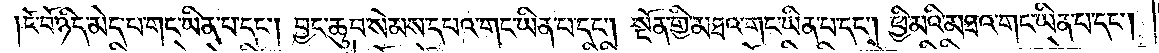ངོ་བོ་ཉིད་མེད་པ་གང་ཡིན་པ་དང༌། བྱང་ཆུབ་སེམས་དཔའ་གང་ཡིན་པ་དང༌། སྔོན་གྱི་མཐའ་གང་ཡིན་པ་དང༌། ཕྱི་མའི་མཐའ་གང་ཡིན་པ་དང༌།
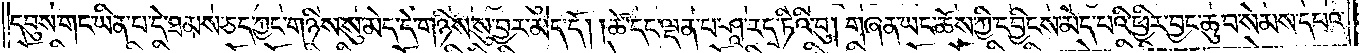དབུས་གང་ཡིན་པ་དེ་ཐམས་ཅད་ཀྱང་གཉིས་སུ་མེད་དེ་གཉིས་སུ་བྱར་མེད་དོ། །ཚེ་དང་ལྡན་པ་ཤཱ་རདྭ་ཏིའི་བུ། གཞན་ཡང་ཆོས་ཀྱི་དབྱིངས་མེད་པའི་ཕྱིར་བྱང་ཆུབ་སེམས་དཔའ་
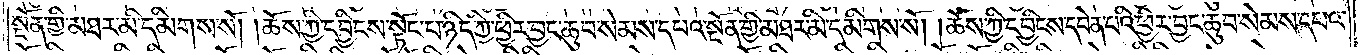སྔོན་གྱི་མཐར་མི་དམིགས་སོ། །ཆོས་ཀྱི་དབྱིངས་སྟོང་པ་ཉིད་ཀྱི་ཕྱིར་བྱང་ཆུབ་སེམས་དཔའ་སྔོན་གྱི་མཐར་མི་དམིགས་སོ། །ཆོས་ཀྱི་དབྱིངས་དབེན་པའི་ཕྱིར་བྱང་ཆུབ་སེམས་དཔའ་
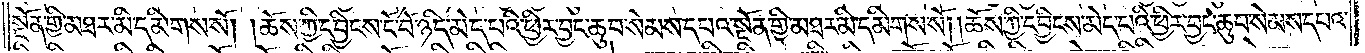སྔོན་གྱི་མཐར་མི་དམིགས་སོ། །ཆོས་ཀྱི་དབྱིངས་ངོ་བོ་ཉིད་མེད་པའི་ཕྱིར་བྱང་ཆུབ་སེམས་དཔའ་སྔོན་གྱི་མཐར་མི་དམིགས་སོ། །ཆོས་ཀྱི་དབྱིངས་མེད་པའི་ཕྱིར་བྱང་ཆུབ་སེམས་དཔའ་
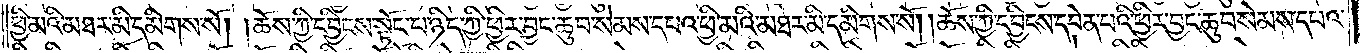ཕྱི་མའི་མཐར་མི་དམིགས་སོ། །ཆོས་ཀྱི་དབྱིངས་སྟོང་པ་ཉིད་ཀྱི་ཕྱིར་བྱང་ཆུབ་སེམས་དཔའ་ཕྱི་མའི་མཐར་མི་དམིགས་སོ། །ཆོས་ཀྱི་དབྱིངས་དབེན་པའི་ཕྱིར་བྱང་ཆུབ་སེམས་དཔའ་
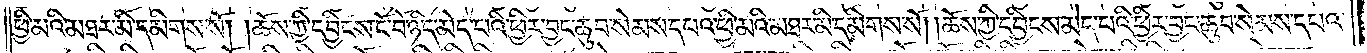ཕྱི་མའི་མཐར་མི་དམིགས་སོ། །ཆོས་ཀྱི་དབྱིངས་ངོ་བོ་ཉིད་མེད་པའི་ཕྱིར་བྱང་ཆུབ་སེམས་དཔའ་ཕྱི་མའི་མཐར་མི་དམིགས་སོ། །ཆོས་ཀྱི་དབྱིངས་མེད་པའི་ཕྱིར་བྱང་ཆུབ་སེམས་དཔའ་
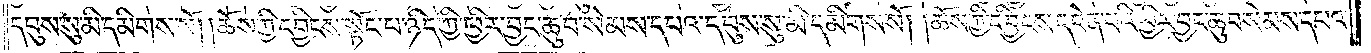དབུས་སུ་མི་དམིགས་སོ། །ཆོས་ཀྱི་དབྱིངས་སྟོང་པ་ཉིད་ཀྱི་ཕྱིར་བྱང་ཆུབ་སེམས་དཔའ་དབུས་སུ་མི་དམིགས་སོ། །ཆོས་ཀྱི་དབྱིངས་དབེན་པའི་ཕྱིར་བྱང་ཆུབ་སེམས་དཔའ་
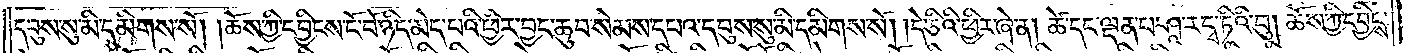དབུས་སུ་མི་དམིགས་སོ། །ཆོས་ཀྱི་དབྱིངས་ངོ་བོ་ཉིད་མེད་པའི་ཕྱིར་བྱང་ཆུབ་སེམས་དཔའ་དབུས་སུ་མི་དམིགས་སོ། །དེ་ཅིའི་ཕྱིར་ཞེ་ན། ཚེ་དང་ལྡན་པ་ཤཱ་རདྭ་ཏིའི་བུ། ཆོས་ཀྱི་དབྱིངས་
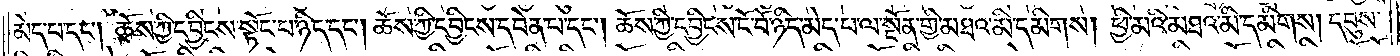མེད་པ་དང༌། ཆོས་ཀྱི་དབྱིངས་སྟོང་པ་ཉིད་དང༌། ཆོས་ཀྱི་དབྱིངས་དབེན་པ་དང༌། ཆོས་ཀྱི་དབྱིངས་ངོ་བོ་ཉིད་མེད་པ་ལ་སྔོན་གྱི་མཐའ་མི་དམིགས། ཕྱི་མའི་མཐའ་མི་དམིགས། དབུས་
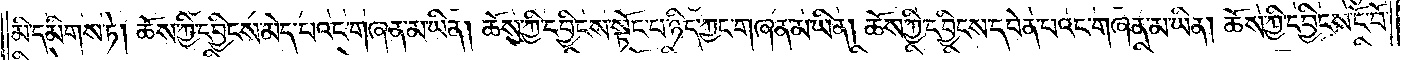མི་དམིགས་ཏེ། ཆོས་ཀྱི་དབྱིངས་མེད་པའང་གཞན་མ་ཡིན། ཆོས་ཀྱི་དབྱིངས་སྟོང་པ་ཉིད་ཀྱང་གཞན་མ་ཡིན། ཆོས་ཀྱི་དབྱིངས་དབེན་པའང་གཞན་མ་ཡིན། ཆོས་ཀྱི་དབྱིངས་ངོ་བོ་
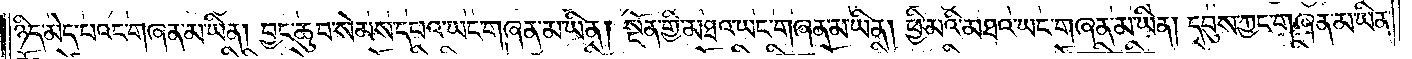ཉིད་མེད་པའང་གཞན་མ་ཡིན། བྱང་ཆུབ་སེམས་དཔའ་ཡང་གཞན་མ་ཡིན། སྔོན་གྱི་མཐའ་ཡང་གཞན་མ་ཡིན། ཕྱི་མའི་མཐའ་ཡང་གཞན་མ་ཡིན། དབུས་ཀྱང་གཞན་མ་ཡིན་
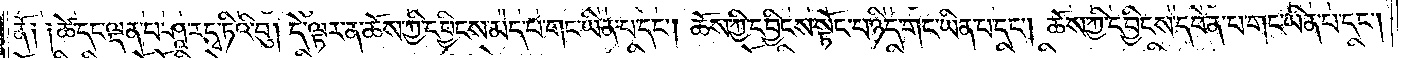ནོ༑ ༑ཚེ་དང་ལྡན་པ་ཤཱ་རདྭ་ཏིའི་བུ། དེ་ལྟར་ན་ཆོས་ཀྱི་དབྱིངས་མེད་པ་གང་ཡིན་པ་དང༌། ཆོས་ཀྱི་དབྱིངས་སྟོང་པ་ཉིད་གང་ཡིན་པ་དང༌། ཆོས་ཀྱི་དབྱིངས་དབེན་པ་གང་ཡིན་པ་དང༌།
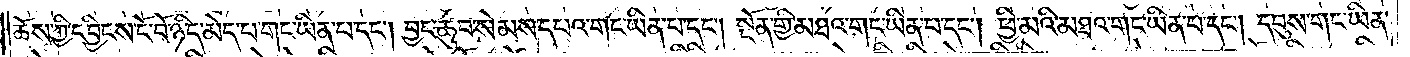ཆོས་ཀྱི་དབྱིངས་ངོ་བོ་ཉིད་མེད་པ་གང་ཡིན་པ་དང༌། བྱང་ཆུབ་སེམས་དཔའ་གང་ཡིན་པ་དང༌། སྔོན་གྱི་མཐའ་གང་ཡིན་པ་དང༌། ཕྱི་མའི་མཐའ་གང་ཡིན་པ་དང༌། དབུས་གང་ཡིན་
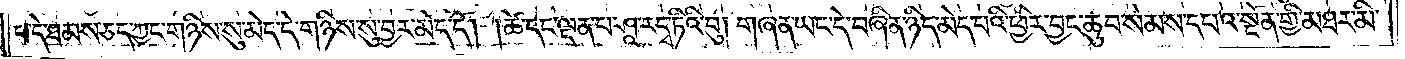པ་དེ་ཐམས་ཅད་ཀྱང་གཉིས་སུ་མེད་དེ་གཉིས་སུ་བྱར་མེད་དོ། །ཚེ་དང་ལྡན་པ་ཤཱ་རདྭ་ཏིའི་བུ། གཞན་ཡང་དེ་བཞིན་ཉིད་མེད་པའི་ཕྱིར་བྱང་ཆུབ་སེམས་དཔའ་སྔོན་གྱི་མཐར་མི་
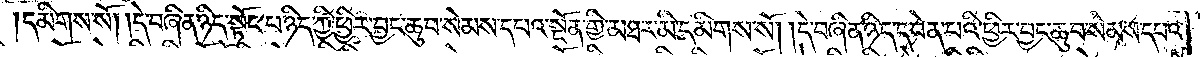དམིགས་སོ། །དེ་བཞིན་ཉིད་སྟོང་པ་ཉིད་ཀྱི་ཕྱིར་བྱང་ཆུབ་སེམས་དཔའ་སྔོན་གྱི་མཐར་མི་དམིགས་སོ། །དེ་བཞིན་ཉིད་དབེན་པའི་ཕྱིར་བྱང་ཆུབ་སེམས་དཔའ་
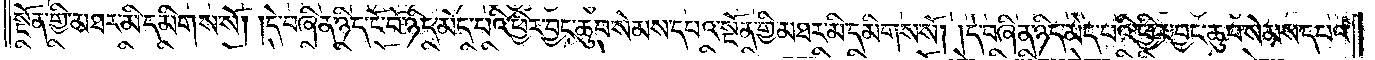སྔོན་གྱི་མཐར་མི་དམིགས་སོ། །དེ་བཞིན་ཉིད་ངོ་བོ་ཉིད་མེད་པའི་ཕྱིར་བྱང་ཆུབ་སེམས་དཔའ་སྔོན་གྱི་མཐར་མི་དམིགས་སོ། །དེ་བཞིན་ཉིད་མེད་པའི་ཕྱིར་བྱང་ཆུབ་སེམས་དཔའ་
